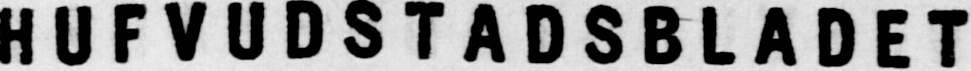HUFVUDSTADSBLADET
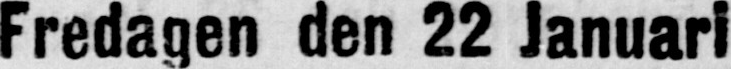Fredagen den 22 Januari
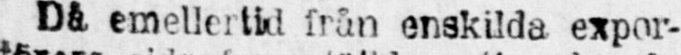Dä emellertid från enskilda expor-
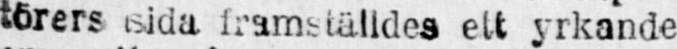törers sida framställdes ett yrkande
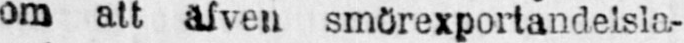om att äfven smörexportandelsla-
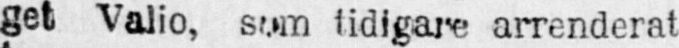get Valio, som tidigare arrenderat
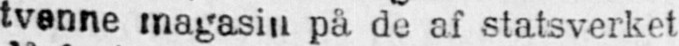tvenne magasin på de af statsverket
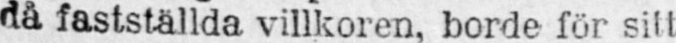då fastställda villkoren, borde för sill
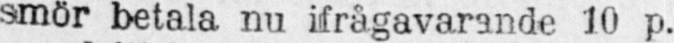smör betala nu ifrågavarande 10 p.
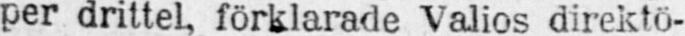per drittel, förklarade Valios direktö-
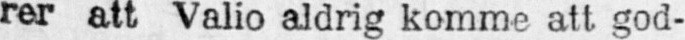rer att Valio aldrig komme att god-
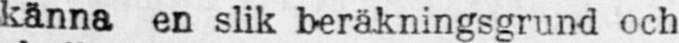känna en slik beräkningsgrund och
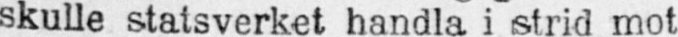skulle statsverket handla i strid mot
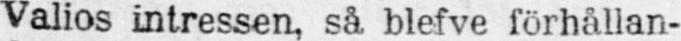Valios intressen, så blefve förhållan-
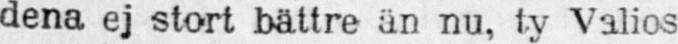dena ej stort bättre än nu, ty Valios
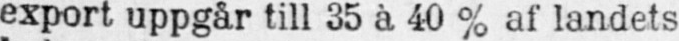export uppgår till 35 à 40 % af landets
